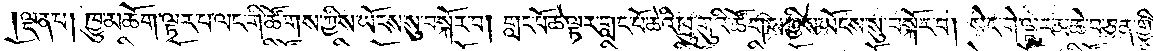ལྡན་པ། ཁྱུ་མཆོག་ལྟར་པ་ལང་གི་ཚོགས་ཀྱིས་ཡོངས་སུ་བསྐོར་བ། གླང་པོ་ཆེ་ལྟར་གླང་པོ་ཆེའི་ཕྲུ་གུའི་ཚོགས་ཀྱིས་ཡོངས་སུ་བསྐོར་བ། སེང་གེ་ལྟར་མཆེ་བ་ཅན་གྱི་
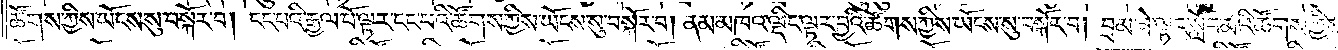ཚོགས་ཀྱིས་ཡོངས་སུ་བསྐོར་བ། ངང་པའི་རྒྱལ་པོ་ལྟར་ངང་པའི་ཚོགས་ཀྱིས་ཡོངས་སུ་བསྐོར་བ། ནམ་མཁའ་ལྡིང་ལྟར་བྱའི་ཚོགས་ཀྱིས་ཡོངས་སུ་བསྐོར་བ། བྲམ་ཟེ་ལྟར་སློབ་མའི་ཚོགས་ཀྱིས་
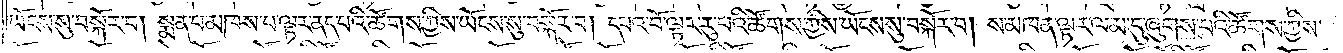ཡོངས་སུ་བསྐོར་བ། སྨན་པ་མཁས་པ་ལྟར་ནད་པའི་ཚོགས་ཀྱིས་ཡོངས་སུ་བསྐོར་བ། དཔའ་བོ་ལྟར་རུ་པའི་ཚོགས་ཀྱིས་ཡོངས་སུ་བསྐོར་བ། ས་མཁན་ལྟར་ལམ་དུ་ཞུགས་པའི་ཚོགས་ཀྱིས་
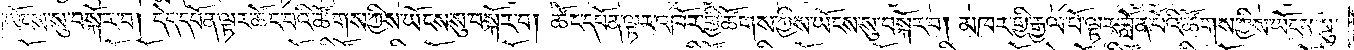ཡོངས་སུ་བསྐོར་བ། དེད་དཔོན་ལྟར་ཚོང་པའི་ཚོགས་ཀྱིས་ཡོངས་སུ་བསྐོར་བ། ཚོང་དཔོན་ལྟར་འཁོར་གྱི་ཚོགས་ཀྱིས་ཡོངས་སུ་བསྐོར་བ། མཁར་གྱི་རྒྱལ་པོ་ལྟར་བློན་པའི་ཚོགས་ཀྱིས་ཡོངས་སུ་
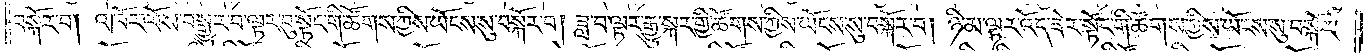བསྐོར་བ། འཁོར་ལོས་བསྒྱུར་བ་ལྟར་བུ་སྟོང་གི་ཚོགས་ཀྱིས་ཡོངས་སུ་བསྐོར་བ། ཟླ་བ་ལྟར་རྒྱུ་སྐར་གྱི་ཚོགས་ཀྱིས་ཡོངས་སུ་བསྐོར་བ། ཉི་མ་ལྟར་འོད་ཟེར་སྟོང་གི་ཚོགས་ཀྱིས་ཡོངས་སུ་བསྐོར་
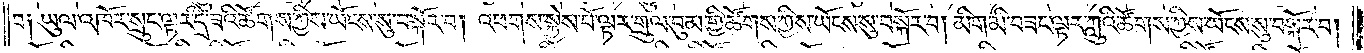བ༑ ཡུལ་འཁོར་སྲུང་ལྟར་དྲི་ཟའི་ཚོགས་ཀྱིས་ཡོངས་སུ་བསྐོར་བ། འཕགས་སྐྱེས་པོ་ལྟར་གྲུལ་བུམ་གྱི་ཚོགས་ཀྱིས་ཡོངས་སུ་བསྐོར་བ། མིག་མི་བཟང་ལྟར་ཀླུའི་ཚོགས་ཀྱིས་ཡོངས་སུ་བསྐོར་བ།
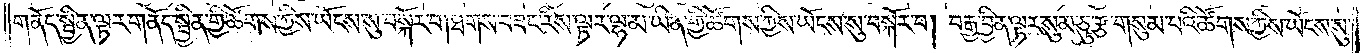གནོད་སྦྱིན་ལྟར་གནོད་སྦྱིན་གྱི་ཚོགས་ཀྱིས་ཡོངས་སུ་བསྐོར་བ། ཐགས་བཟང་རིས་ལྟར་ལྷ་མ་ཡིན་གྱི་ཚོགས་ཀྱིས་ཡོངས་སུ་བསྐོར་བ། བརྒྱ་བྱིན་ལྟར་སུམ་ཅུ་རྩ་གསུམ་པའི་ཚོགས་ཀྱིས་ཡོངས་སུ་
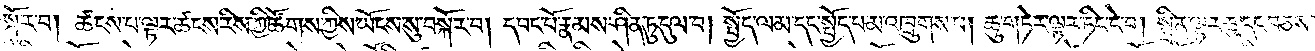བསྐོར་བ། ཚངས་པ་ལྟར་ཚངས་རིས་ཀྱི་ཚོགས་ཀྱིས་ཡོངས་སུ་བསྐོར་བ། དབང་པོ་རྣམས་ཤིན་ཏུ་དུལ་བ། སྤྱོད་ལམ་དང་སྤྱོད་པ་མ་འཁྲུགས་པ། ཆུ་གཏེར་ལྟར་ཏིང་ངེ་བ། སྤྲིན་ལྟར་ཆུ་དང་བཅས་པ། གླང་
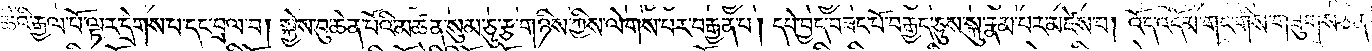པོ་ཆེའི་རྒྱལ་པོ་ལྟར་དྲེགས་པ་དང་བྲལ་བ། སྐྱེས་བུ་ཆེན་པོའི་མཚན་སུམ་ཅུ་རྩ་གཉིས་ཀྱིས་ལེགས་པར་བརྒྱན་པ། དཔེ་བྱད་བཟང་པོ་བརྒྱད་ཅུས་སྐུ་རྣམ་པར་མཛེས་པ། འོད་འདོམ་གང་གིས་གཟུགས་ཅན་
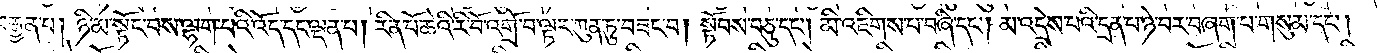བརྒྱན་པ། ཉི་མ་སྟོང་བས་ལྷག་པའི་འོད་དང་ལྡན་པ། རིན་པོ་ཆེའི་རི་བོ་འགྲོ་བ་ལྟར་ཀུན་ཏུ་བཟང་བ། སྟོབས་བཅུ་དང༌། མི་འཇིགས་པ་བཞི་དང༌། མ་འདྲེས་པའི་དྲན་པ་ཉེ་བར་བཞག་པ་གསུམ་དང༌།
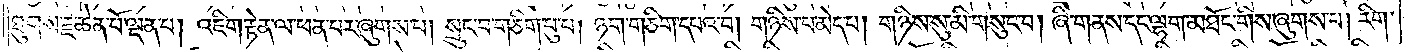ཐུགས་རྗེ་ཆེན་པོ་ལྡན་པ། འཇིག་རྟེན་ལ་ཕན་པར་ཞུགས་པ། སྲུང་བ་གཅིག་པུ་པ། ཉག་ཅིག་དཔའ་བ། གཉིས་པ་མེད་པ། གཉིས་སུ་མི་གསུང་བ། ཞི་གནས་དང་ལྷག་མཐོང་གིས་ཞུགས་པ། རིག་
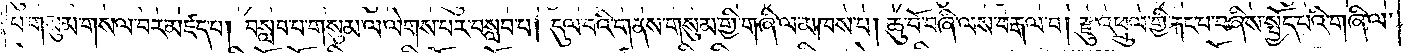པ་གསུམ་གསལ་བར་མཛད་པ། བསླབ་པ་གསུམ་ལ་ལེགས་པར་བསླབ་པ། དུལ་བའི་གནས་གསུམ་གྱི་གཞི་ལ་མཁས་པ། ཆུ་བོ་བཞི་ལས་བརྒལ་བ། རྫུ་འཕྲུལ་གྱི་རྐང་པ་བཞིས་སྤྱོད་པའི་གཞི་ལ་
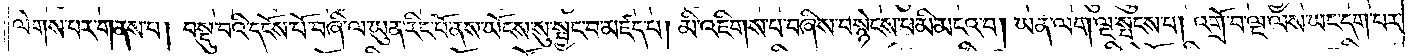ལེགས་པར་གནས་པ། བསྡུ་བའི་དངོས་པོ་བཞི་ལ་ཡུན་རིང་པོ་ནས་ཡོངས་སུ་སྦྱང་བ་མཛད་པ། མི་འཇིགས་པ་བཞིས་བསྙེངས་པ་མི་མངའ་བ། ཡན་ལག་ལྔ་སྤངས་པ། འགྲོ་བ་ལྔ་ལས་ཡང་དག་པར་
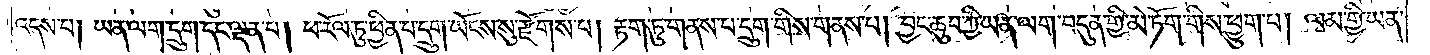འདས་པ། ཡན་ལག་དྲུག་དང་ལྡན་པ། ཕ་རོལ་ཏུ་ཕྱིན་པ་དྲུག་ཡོངས་སུ་རྫོགས་པ། རྟག་ཏུ་གནས་པ་དྲུག་གིས་གནས་པ། བྱང་ཆུབ་ཀྱི་ཡན་ལག་བདུན་གྱི་མེ་ཏོག་གིས་ཕྱུག་པ། ལམ་གྱི་ཡན་
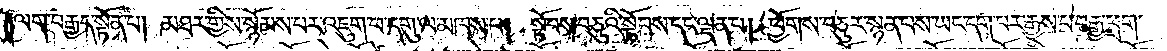ལག་བརྒྱད་སྟོན་པ། མཐར་གྱིས་སྙོམས་པར་འཇུག་པ་དགུ་ལ་མཁས་པ། སྟོབས་བཅུའི་སྟོབས་དང་ལྡན་པ། ཕྱོགས་བཅུར་སྙན་པས་ཡང་དག་པར་རྒྱས་པ་བརྒྱ་ཕྲག་
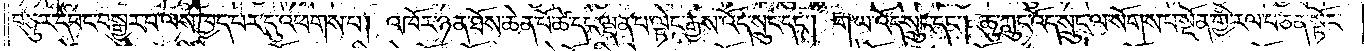བཅུར་དབང་བསྒྱུར་བ་ལས་ཁྱད་པར་དུ་འཕགས་པ། འཁོར་ཉན་ཐོས་ཆེན་པོ་ཚེ་དང་ལྡན་པ་ལྟེང་རྒྱས་འོད་སྲུང་དང༌། ག་ཡ་འོད་སྲུང་དང༌། ཆུ་ཀླུང་འོད་སྲུང་ལ་སོགས་པ་སྔོན་གྱི་རལ་པ་ཅན་སྟོང་
